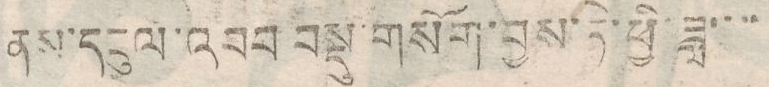ནས་དངུལ་འབབ བསྡུ་གསོག་བྱས་ཏེ་ཕྱི་ཟླ་་་་
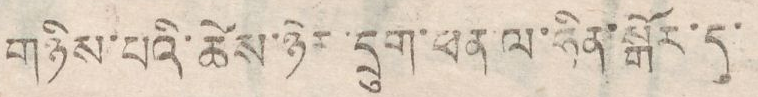གཉིས་པའི་ཚེས་ཉེར་དྲུག་ཕན ལ་ཧིན་སྒོར་དུ་
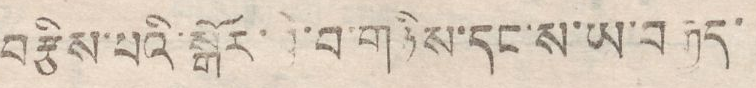བརྩིས་པའི་སྒོར་ ་བ་གཉིས་དང་ས་ཡ་བརྒྱད་
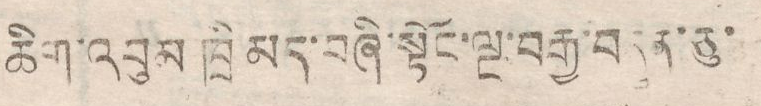ཆིག་འབུམ ཁྲི མད་བཞི་སྟོང་ལྔ་བརྒྱ་བདུན་ཅུ་
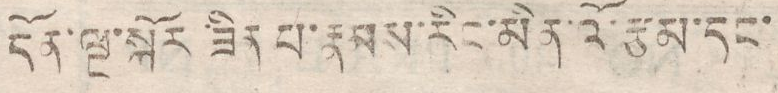དོན་ལྔ་སྐོར་ཟིན་པ་རྣམས་རིང་མིན་འོ་རྩམ་དང་
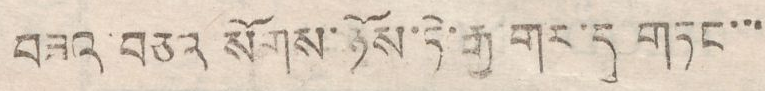བཟའ་བཅའ སོགས་ཉོས་ཏེ་རྒྱ་གར་དུ གཏང་་་
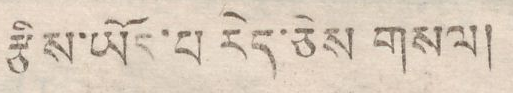རྩིས་ཡོད་པ རེད་ཅེས གསལ།
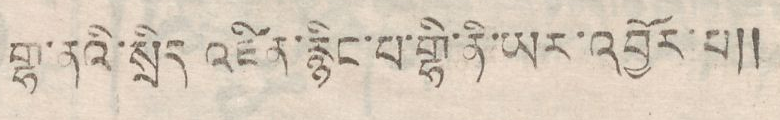གྷ་ནའི་སྲིད འཛིན་རྙིང་པ་གྷི་ནི་ཡར་འབྱོར་པ།།
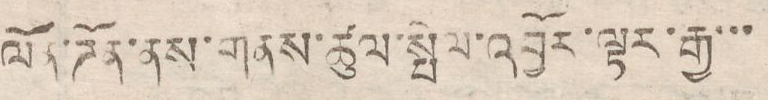ལོན་ཌོན་ནས་གནས་ཚུལ་སྤེལ་འབྱོར་ལྟར་རྒྱ་་་
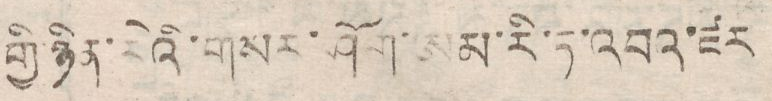གྱི་ཉིན་རེའི་གསར་ཤོག་ཨམ་རི་ཏ་འབའ་ཛར
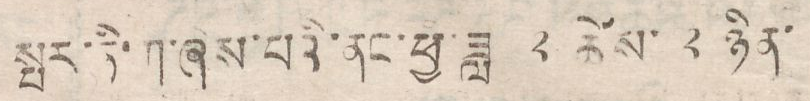སྤར་ཏི་ཀ་ཞེས་པའི་ནང་ཕྱི་ཟླ ༢ ཚེས་ ༢ ཉིན་
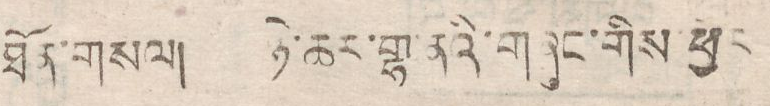ཐོན་གསལ། ཉེ་ཆར་གྷ་ནའི་གཞུང་གིས་ཕྱིར
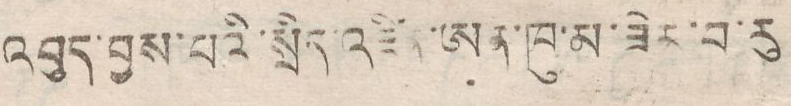འབུད་བྱས་པའི་སྲིད་འཛིན་ཨན་ཁུ་མ་ཟེར་བ་རུ
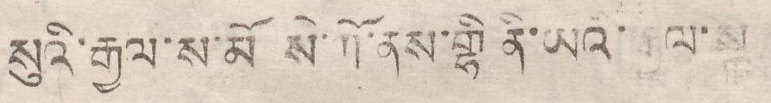སུའི་རྒྱལ་ས་མོ སེ་ཀོ་ནས་གྷི ནི་ཡའི་རྒྱལ་ས
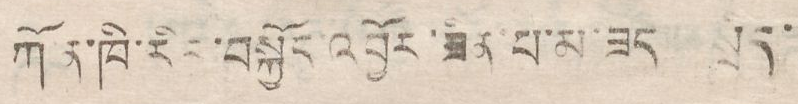ཀོན་ཁི་རིང་བསྐྱོད་འབྱོར་ཟིན་པ་མ་ཟད སྲིད་
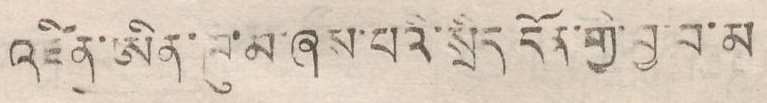འཛིན་ཨིན་ཁུ་མ་ཞེས་པའི་སྲིད དོན་གྱི་བྱ་བ་མ
